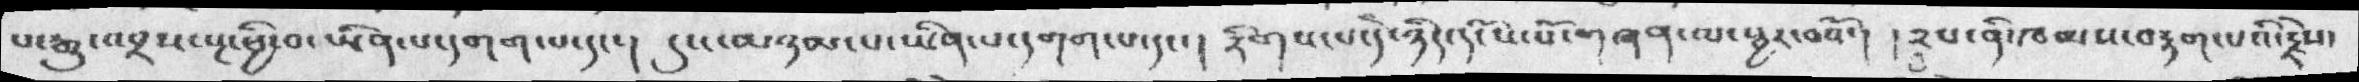པ་རྒྱུ་འབྲས་སྔ་ཕྱི་བ་ཡིན་ས་དགག་པ་དང་།  དུས་མཉམ་པ་ཡིན་པ་དགག་པ་དང་ །  རིགས་པ་དེ་ཉིད་དངོས་པོ་གཞན་ལ་སྦྱར་བའོ་།  ༢པ་ནི་ཁམས་བརྟག་པའི་རྗེས་
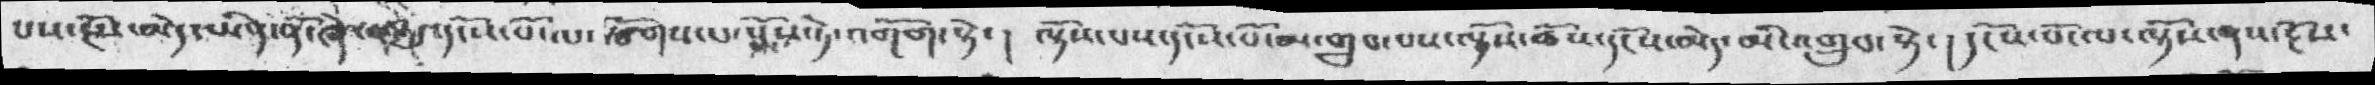པས་རྔོས་མེད་ཡིན་ཞེ་ན་དུ་དངོས་པོ་ལ་སྩོགས་པ་སྨོས་ཏེ་འགོག་སྟེ་།   ལྟོས་པས་དངོས་པོ་མ་གྲུབ་པས་ལྟོས་ཆོས་དངོས་མེད་མི་འགྲུབ་སྟེ་།  དངོས་པོ་ལ་ལྟོས་ནས་རྔོས་
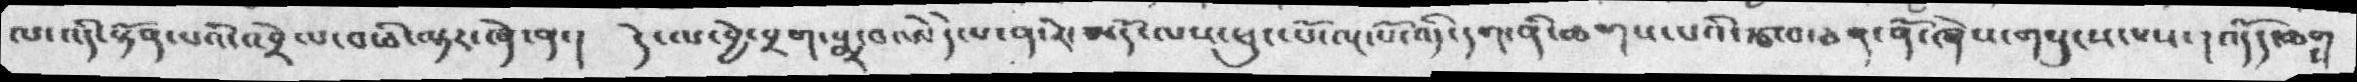ལ་འདི་སྟོན་པའི་འབྲེལ་བ་ཅི་ལྟར་ཞེ་ན་།   དེ་ལ་བྱེ་བྲག་སྨྲ་བ་ཨེདེ་པ་ན་རེ་མདོ་ལས་ཕུང་པོ་ལྔ་པོ་འདི་དག་ནི་ཆགས་པའི་རྩ་བ་ཅན་ནོ་ཞེས་གསུངས་པས་།  འདོད་ཆགས
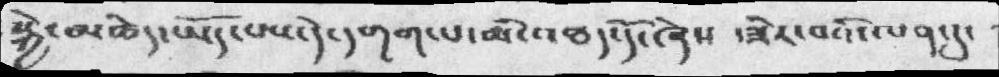སྐྱེ་མཆེད་ཡོད་པས་de དགག་པ་མི་འཐད་དོ་ཞེས ་ཟེར་བའི་ལན་དུ་
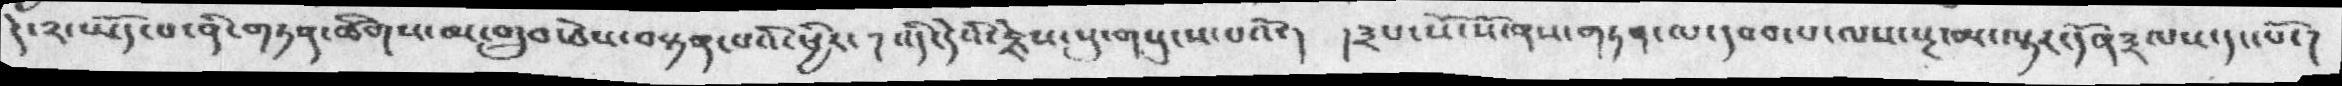དེ་༢་ཡོད་པ་ནི་གཏན་ཚིགས་མ་གྲུབ་ཅེས་བསྟན་པའི་ཕྱིར་།  འདི་དེའི་རྗེས་སུ་གསུངས་པའོ་།  །༣པ་སོ་སོ་ནས་གཏན་ལ་དབབ་པ་ལས་སྔ་མ་ལྟར་དོན༣ལས་དང་པོ་།
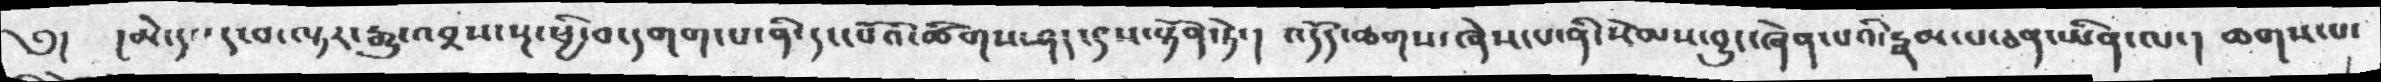༅།     ། མེ་དང་དུ་བ་ལྟར་རྒྱུ་འབྲས་སྔ་ཕྱི་བ་དགག་པ་ནི་དང་པོའི་ཚིགས་ཤད་དུས་སྟོན་ཏེ་།   འདོད་ཆགས་ཞེས་པ་ནི་སེམས་བྱུང་ཞེན་པའི་རྣམ་པ་ཅན་ཡིན་ལ་།  ཆགས་པ་
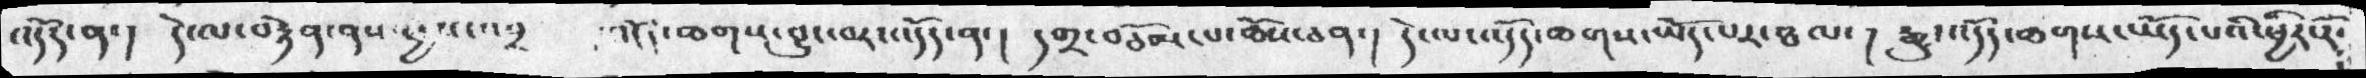འདོད་ན་།   དེ་ལ་བརྟེན་ནས་ཕྱས་འབྲས་  འདོད་ཆགས་བྱུང་བར་འདོད་ན་།   དགྲ་བཅོམ་པ་ཆོས་ཅན་།  དེ་ལ་འདོད་ཆགས་ཡོད་པར་ཐལ་།   རྒྱུ་འདོད་ཆགས་ཡོད་པའི་ཕྱིར་རོ་
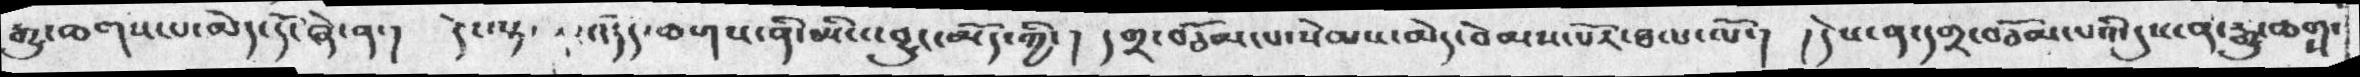རྒྱུ་ཆགས་པ་མེད་དོང་ཞེ་ན་།   དེ་ལྟ་ན་འདོད་ཆགས་ནི་མི་འབྱུང་མོད་ཀྱི་།   དགྲ་བཅོམ་པ་སེམས་མེད་བེམས་པོར་ཐལ་ལོ་།   ། དེས་ན་དགྲ་བཅོམ་པའི་དུས་ན་རྒྱུ་ཆགས་
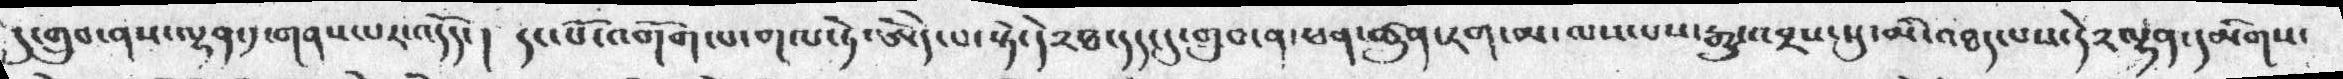དུ་གྲུབ་ནས་ལྷན་དུ་གནས་པར་འདོད་།  དང་པོ་འགོག་པ་གལ་ཏེ་ཨེདེ་པ་སྟེ་དེ་༢ཐ་དད་དུ་གྲུབ་ན་ཕན་ཚུན་རག་མ་ལས་པས་རྒྱུ་འབྲས་སུ་མི་འཐད་པས་དེ༢ལྷན་དམིགས་
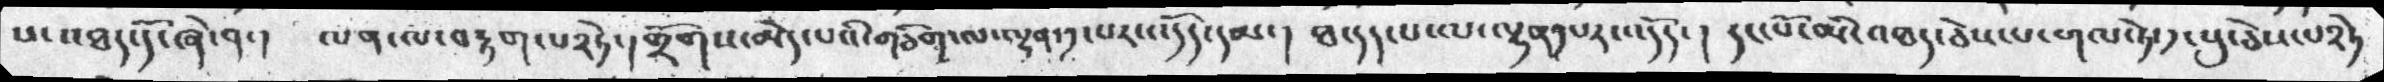པ་འཐད་དོ་ཞེ་ན་།  ལན་ལ་བརྟག་པ༢ཏེ་། གྲོགས་མེད་པའི་གཅོག་ལ་ལྷན་༡་པར་འདོད་དམ་།  ཐ་དད་པ་ལ་ལྷན་༡པར་འདོད་།  དང་པོ་མི་འཐད་ཅེསཔ་གལ་ཏེ་༡་པུ་ཅེསཔ༢ཏེ་
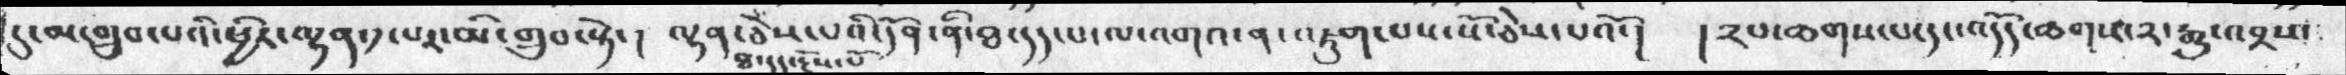དུ་མ་གྲུབ་པའི་ཕྱིར་ལྷན་༡་པར་མི་གྲུབ་སྟེ་།  ལྷན་ཅེས་པའི་དོན་ནི་ཐ་དད་པ་ལ་འགའ་ན་འཇུག་པས་སོ་ཅེས་པའོ་།  །༢ལ་ཆགས་པ་དང་འདོད་ཆགས་༢་རྒྱུ་འབྲས་
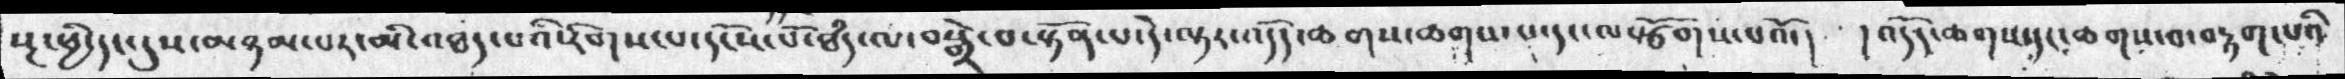སྔ་ཕྱི་དང་དུས་མཉམ་པར་མི་འཐད་པའི་རིགས་པ་དངོས་པོ་ཐཾད་ལ་བསྒྲེ་བ་སྟོན་པ་དེ་ལྟར་འདོད་ཆགས་ཆགས་པ་དང་ལསྩོགས་པའོ་།  ། འདོད་ཆགས་དང་ཆགས་བ་བརྟག་པའི
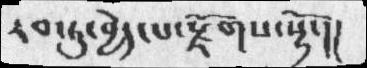རབ་ཏུ་བྱེད་པ་རྫོགས་སྷོ་།།
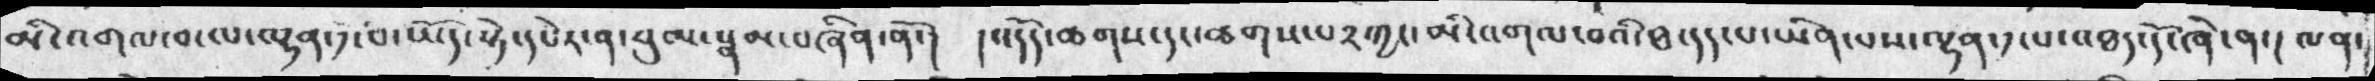མི་འགལ་བ་ལ་ལྷན་༡་པ་ཡོད་སྟེ་དཔེར་ན་བུམ་སྣམ་བཞིན་ནོ་། །འདོད་ཆགས་དང་ཆགས་པ༢ཀྱང་མི་འགལ་བའི་ཐ་དད་པ་ཡིན་པས་ལྷན་༡་པ་འཐད་དོ་ཞེ་ན་། ལན་
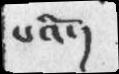པའི་།
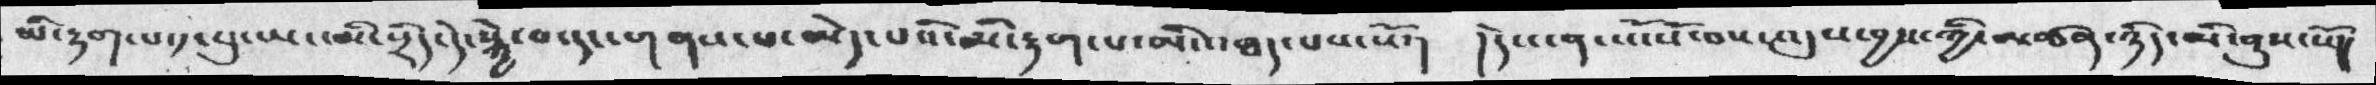མི་རྟག་པ་༡་སུ་ཡང་མི་སྲིད་དེ་སྐྱེ་བ་དང་གནས་པ་མེད་པའི་མི་རྟག་པ་མི་འཐད་པས་སོ་།  །དེས་ན་སོ་སོ་བས་འདུས་བྱས་ཀྱི་མཚན་ཉིད་མི་ནུས་སོ།།
